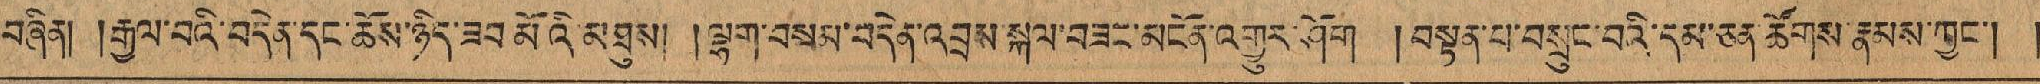བཞིན། །རྒྱལ་བའི་བདེན་དང་ཆོས་ཉིད་ཟབ་མོའི་མཐུས། །ལྷག་བསམ་བདེན་འབྲས་སྐལ་བཟང་མངོན་འགྱུར་ཤོག །བསྟན་པ་སྲུང་བའི་དམ་ཅན་ཚོགས་རྣམས་ཀྱང་། །
